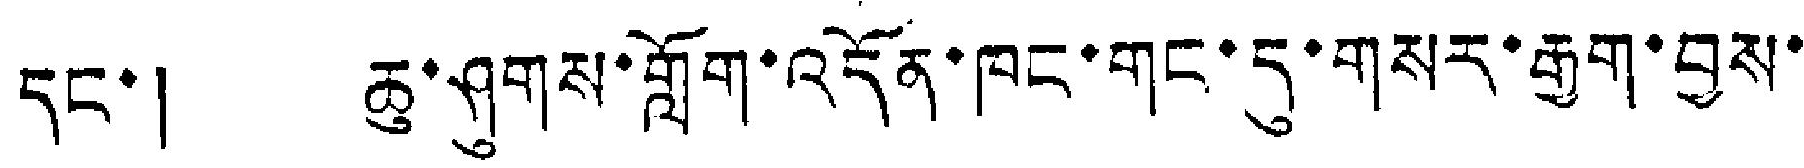དང་། ཆུ་ཤུགས་ཀློག་འདོན་ཁང་གང་དུ་གསར་རྒྱག་བྱས་
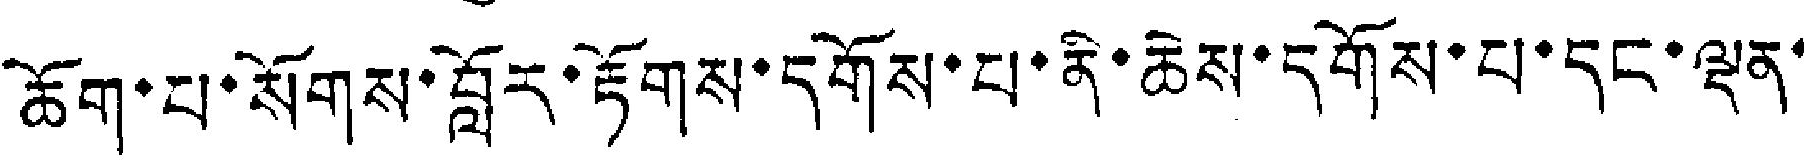ཆོག་པ་སོགས་བློར་རྟོགས་དགོས་པ་ནི་ཆེས་དགོས་པ་དང་ལྡན་
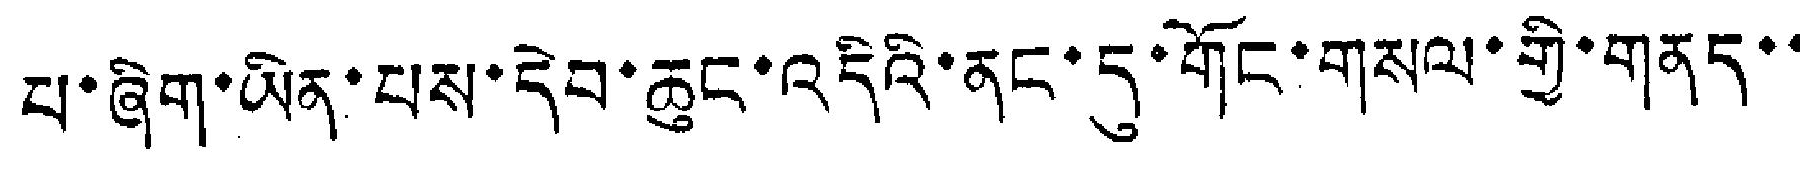པ་ཞིག་ཡིན་པས་དེབ་ཆུང་འདིའི་ནང་དུ་གོང་གསལ་གྱི་གནད་་
